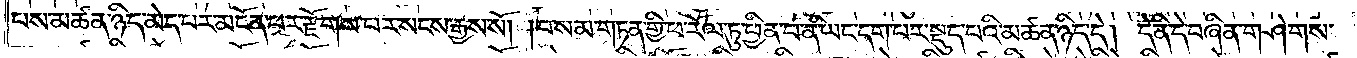པས་མཚན་ཉིད་མེད་པར་མངོན་པར་རྫོགས་པར་སངས་རྒྱས་སོ། །བསམ་གཏན་གྱི་ཕ་རོལ་ཏུ་ཕྱིན་པ་ནི་ཡང་དག་པར་སྡུད་པའི་མཚན་ཉིད་དེ། དེ་ནི་དེ་བཞིན་གཤེགས་
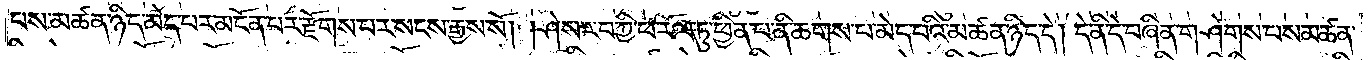པས་མཚན་ཉིད་མེད་པར་མངོན་པར་རྫོགས་པར་སངས་རྒྱས་སོ། །ཤེས་རབ་ཀྱི་ཕ་རོལ་ཏུ་ཕྱིན་པ་ནི་ཆགས་པ་མེད་པའི་མཚན་ཉིད་དེ། དེ་ནི་དེ་བཞིན་གཤེགས་པས་མཚན་
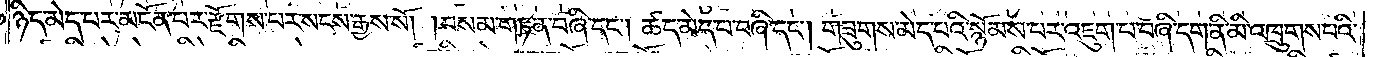ཉིད་མེད་པར་མངོན་པར་རྫོགས་པར་སངས་རྒྱས་སོ། །བསམ་གཏན་བཞི་དང༌། ཚད་མེད་པ་བཞི་དང༌། གཟུགས་མེད་པའི་སྙོམས་པར་འཇུག་པ་བཞི་དག་ནི་མི་འཁྲུགས་པའི་
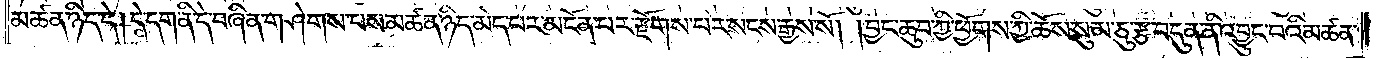མཚན་ཉིད་དེ། དེ་དག་ནི་དེ་བཞིན་གཤེགས་པས་མཚན་ཉིད་མེད་པར་མངོན་པར་རྫོགས་པར་སངས་རྒྱས་སོ། །བྱང་ཆུབ་ཀྱི་ཕྱོགས་ཀྱི་ཆོས་སུམ་ཅུ་རྩ་བདུན་ནི་འབྱུང་བའི་མཚན་
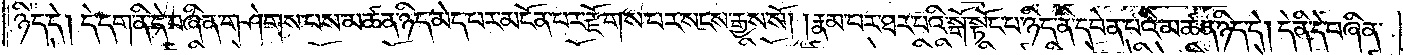ཉིད་དེ། དེ་དག་ནི་དེ་བཞིན་གཤེགས་པས་མཚན་ཉིད་མེད་པར་མངོན་པར་རྫོགས་པར་སངས་རྒྱས་སོ། །རྣམ་པར་ཐར་པའི་སྒོ་སྟོང་པ་ཉིད་ནི་དབེན་པའི་མཚན་ཉིད་དེ། དེ་ནི་དེ་བཞིན་
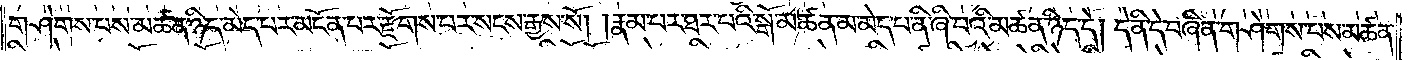གཤེགས་པས་མཚན་ཉིད་མེད་པར་མངོན་པར་རྫོགས་པར་སངས་རྒྱས་སོ། རྣམ་པར་ཐར་པའི་སྒོ་མཚན་མ་མེད་པ་ནི་ཞི་བའི་མཚན་ཉིད་དེ། དེ་ནི་དེ་བཞིན་གཤེགས་པས་མཚན་
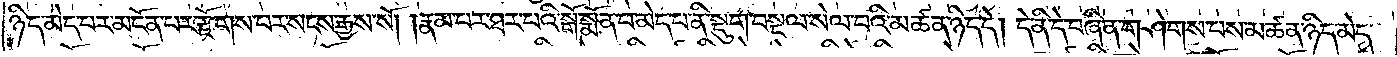ཉིད་མེད་པར་མངོན་པར་རྫོགས་པར་སངས་རྒྱས་སོ། །རྣམ་པར་ཐར་པའི་སྒོ་སྨོན་པ་མེད་པ་ནི་སྡུག་བསྔལ་སེལ་བའི་མཚན་ཉིད་དེ། དེ་ནི་དེ་བཞིན་གཤེགས་པས་མཚན་ཉིད་མེད་
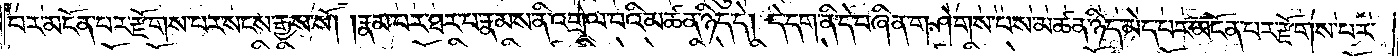པར་མངོན་པར་རྫོགས་པར་སངས་རྒྱས་སོ། །རྣམ་པར་ཐར་པ་རྣམས་ནི་འགྲེལ་བའི་མཚན་ཉིད་དེ། དེ་དག་ནི་དེ་བཞིན་གཤེགས་པས་མཚན་ཉིད་མེད་པར་མངོན་པར་རྫོགས་པར་
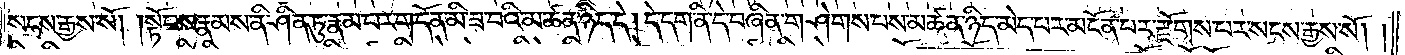སངས་རྒྱས་སོ། །སྟོབས་རྣམས་ནི་ཤིན་ཏུ་རྣམ་པར་གདོན་མི་ཟ་བའི་མཚན་ཉིད་དེ། དེ་དག་ནི་དེ་བཞིན་གཤེགས་པས་མཚན་ཉིད་མེད་པར་མངོན་པར་རྫོགས་པར་སངས་རྒྱས་སོ། །
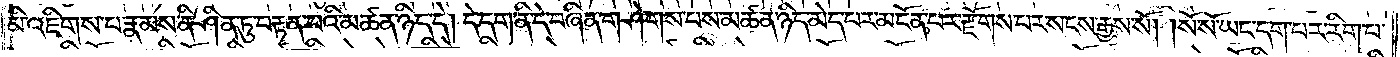མི་འཇིགས་པ་རྣམས་ནི་ཤིན་ཏུ་བརྟན་པའི་མཚན་ཉིད་དེ། དེ་དག་ནི་དེ་བཞིན་གཤེགས་པས་མཚན་ཉིད་མེད་པར་མངོན་པར་རྫོགས་པར་སངས་རྒྱས་སོ། །སོ་སོ་ཡང་དག་པར་རིག་པ་
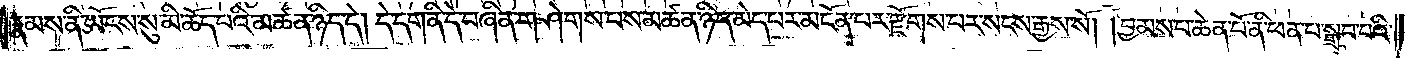རྣམས་ནི་ཡོངས་སུ་མི་ཆོད་པའི་མཚན་ཉིད་དེ། དེ་དག་ནི་དེ་བཞིན་གཤེགས་པས་མཚན་ཉིད་མེད་པར་མངོན་པར་རྫོགས་པར་སངས་རྒྱས་སོ། །བྱམས་པ་ཆེན་པོ་ནི་ཕན་པ་སྒྲུབ་པའི་
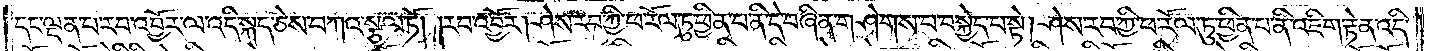དང་ལྡན་པ་རབ་འབྱོར་ལ་འདི་སྐད་ཅེས་བཀའ་སྩལ་ཏོ། །རབ་འབྱོར། ཤེས་རབ་ཀྱི་ཕ་རོལ་ཏུ་ཕྱིན་པ་ནི་དེ་བཞིན་གཤེགས་པ་བསྐྱེད་པ་སྟེ། ཤེས་རབ་ཀྱི་ཕ་རོལ་ཏུ་ཕྱིན་པ་ནི་འཇིག་རྟེན་འདི་
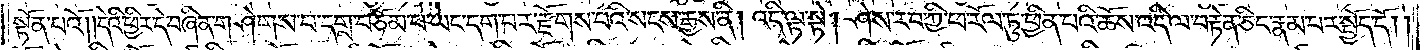སྟོན་པའོ། །དེའི་ཕྱིར་དེ་བཞིན་གཤེགས་བ་དགྲ་བཅོམ་པ་ཡང་དག་པར་རྫོགས་པའི་སངས་རྒྱས་ནི། འདི་ལྟ་སྟེ། ཤེས་རབ་ཀྱི་ཕ་རོལ་ཏུ་ཕྱིན་པའི་ཆོས་འདི་ལ་བརྟེན་ཅིང་རྣམ་པར་སྤྱོད་དོ། །
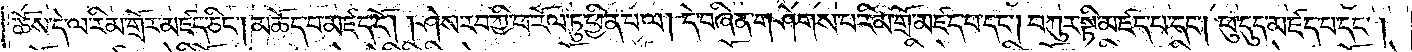ཆོས་དེ་ལ་རིམ་གྲོར་མཛད་ཅིང༌། མཆོད་པ་མཛད་དོ། །ཤེས་རབ་ཀྱི་ཕ་རོལ་ཏུ་ཕྱིན་པ་ལ། དེ་བཞིན་གཤེགས་པ་རིམ་གྲོ་མཛད་པ་དང༌། བཀུར་སྟི་མཛད་པ་དང༌། ཕུ་དུད་མཛད་པ་དང༌།
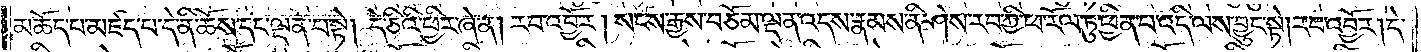མཆོད་པ་མཛད་པ་དེ་ནི་ཆོས་དང་ལྡན་པ་སྟེ། དེ་ཅིའི་ཕྱིར་ཞེ་ན། རབ་འབྱོར། སངས་རྒྱས་བཅོམ་ལྡན་འདས་རྣམས་ནི་ཤེས་རབ་ཀྱི་ཕ་རོལ་ཏུ་ཕྱིན་པ་འདི་ལས་བྱུང་སྟེ། རབ་འབྱོར། དེ་
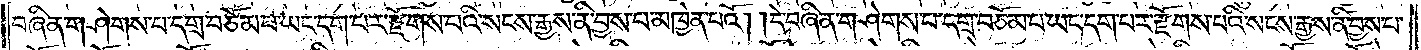བཞིན་གཤེགས་པ་དགྲ་བཅོམ་པ་ཡང་དག་པར་རྫོགས་པའི་སངས་རྒྱས་ནི་བྱས་པ་མཁྱེན་པའོ། །དེ་བཞིན་གཤེགས་པ་དགྲ་བཅོམ་པ་ཡང་དག་པར་རྫོགས་པའི་སངས་རྒྱས་ནི་བྱས་པ་
